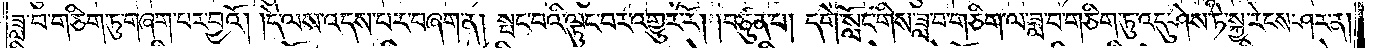ཟླ་བ་གཅིག་ཏུ་གཞག་པར་བྱའོ། །དེ་ལས་འདས་པར་བཞག་ན། སྤང་བའི་ལྟུང་བར་འགྱུར་རོ། །བཙུན་པ། དགེ་སློང་གིས་ཟླ་བ་གཅིག་ལ་ཟླ་བ་གཅིག་ཏུ་འདུ་ཤེས་ཏེ་སྐྱ་རེངས་ཤར་ན།
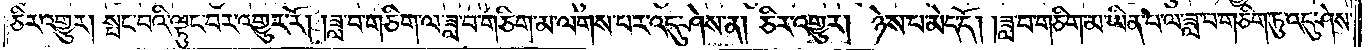ཅིར་འགྱུར། སྤང་བའི་ལྟུང་བར་འགྱུར་རོ། །ཟླ་བ་གཅིག་ལ་ཟླ་བ་གཅིག་མ་ལགས་པར་འདུ་ཤེས་ན། ཅིར་འགྱུར། ཉེས་པ་མེད་དོ། །ཟླ་བ་གཅིག་མ་ཡིན་པ་ལ་ཟླ་བ་གཅིག་ཏུ་འདུ་ཤེས་
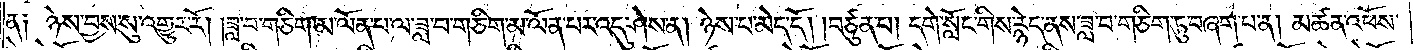ན༑ ཉེས་བྱས་སུ་འགྱུར་རོ། །ཟླ་བ་གཅིག་མ་ལོན་པ་ལ་ཟླ་བ་གཅིག་མ་ལོན་པར་འདུ་ཤེས་ན། ཉེས་པ་མེད་དོ། །བཙུན་པ། དགེ་སློང་གིས་རྙེད་ནས་ཟླ་བ་གཅིག་ཏུ་བཞག་པ་ན། མཚན་འཕོས་
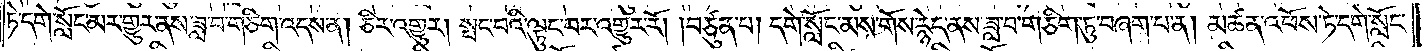ཏེ་དགེ་སློང་མར་གྱུར་ནས་ཟླ་བ་གཅིག་འདས་ན། ཅིར་འགྱུར། སྤང་པའི་ལྟུང་བར་འགྱུར་རོ། །བཙུན་པ། དགེ་སློང་མས་གོས་རྙེད་ནས་ཟླ་བ་གཅིག་ཏུ་བཞག་པ་ན། མཚན་འཕོས་ཏེ་དགེ་སློང་
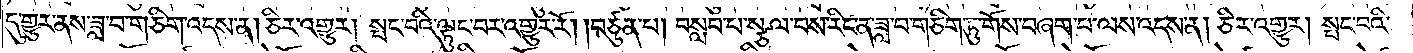དུ་གྱུར་ནས་ཟླ་བ་གཅིག་འདས་ན། ཅིར་འགྱུར། སྤང་བའི་ལྟུང་བར་འགྱུར་རོ། །བཙུན་པ། བསླབ་པ་སྩལ་བས་རིང་ན་ཟླ་བ་གཅིག་ཏུ་གོས་བཞག་པ་ལས་འདས་ན། ཅིར་འགྱུར། སྤང་བའི་
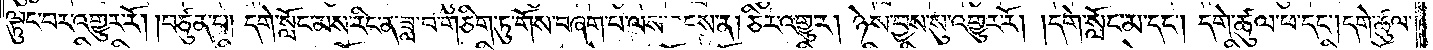ལྟུང་བར་འགྱུར་རོ། །བཙུན་པ། དགེ་སློང་མས་རིང་ན་ཟླ་བ་གཅིག་ཏུ་གོས་བཞག་པ་ལས་འདས་ན། ཅིར་འགྱུར། ཉེས་བྱས་སུ་འགྱུར་རོ། །དགེ་སློང་མ་དང༌། དགེ་ཚུལ་ཕ་དང༌། དགེ་ཚུལ་
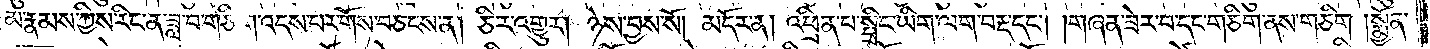མ་རྣམས་ཀྱིས་རིང་ན་ཟླ་བ་གཅིག་འདས་པར་གོས་བཅངས་ན། ཅིར་འགྱུར། ཉེས་བྱས་སོ།    །མདོར་ན། འཕྲིན་པ་སྤྲིང་ཡིག་ལག་བརྡ་དང༌། །གཞན་ཟེར་བ་དང་གཅིག་ནས་གཅིག །སྨྱོན་
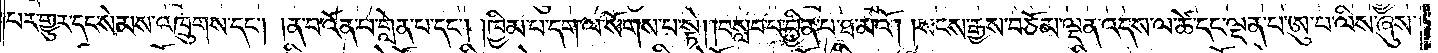པར་གྱུར་དང་སེམས་འཁྲུགས་དང༌། །ན་བ་འོན་པ་གླེན་པ་དང༌། །ཁྱིམ་པ་དག་ལ་སོགས་པ་སྟེ། །བསླབ་པ་བྱིན་པ་ཐ་མའོ། །སངས་རྒྱས་བཅོམ་ལྡན་འདས་ལ་ཚེ་དང་ལྡན་པ་ཨུ་པ་ལིས་ཞུས་
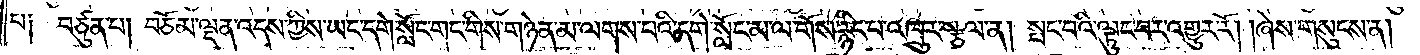པ༑ བཙུན་པ། བཅོམ་ལྡན་འདས་ཀྱིས་ཡང་དགེ་སློང་གང་གིས་གཉེན་མ་ལགས་པའི་དགེ་སློང་མ་ལ་གོས་རྙིང་པ་འཁྲུར་སྩལ་ན། སྤང་བའི་ལྟུང་བར་འགྱུར་རོ། །ཞེས་གསུངས་ན།
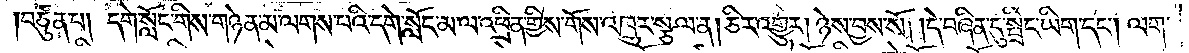བཙུན་པ། དགེ་སློང་གིས་གཉེན་མ་ལགས་པའི་དགེ་སློང་མ་ལ་འཕྲིན་གྱིས་གོས་འཁྲུར་སྩལ་ན། ཅིར་འགྱུར། ཉེས་བྱས་སོ། །དེ་བཞིན་དུ་སྤྲིང་ཡིག་དང༌། ལག་
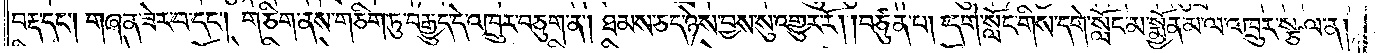བརྡ་དང༌། གཞན་ཟེར་བ་དང༌། གཅིག་ནས་གཅིག་ཏུ་བརྒྱུད་དེ་འཁྲུར་བཅུག་ན། ཐམས་ཅད་ཉེས་བྱས་སུ་འགྱུར་རོ། །བཙུན་པ། དགེ་སློང་གིས་དགེ་སློང་མ་སྨྱོན་མ་ལ་འཁྲུར་སྩལ་ན།
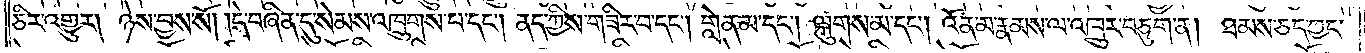ཅིར་འགྱུར། ཉེས་བྱས་སོ། །དེ་བཞིན་དུ་སེམས་འཁྲུགས་པ་དང༌། ནད་ཀྱིས་གཟིར་བ་དང༌། གླེན་མ་དང༌། ལྐུགས་མ་དང༌། འོན་མ་རྣམས་ལ་འཁྲུར་བཅུག་ན། ཐམས་ཅད་ཀྱང་
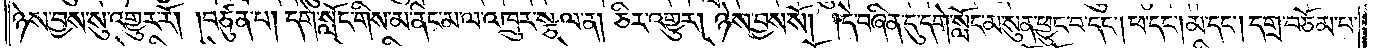ཉེས་བྱས་སུ་འགྱུར་རོ། །བཙུན་པ། དགེ་སློང་གིས་མ་ནིང་མ་ལ་འཁྲུར་སྩལ་ན། ཅིར་འགྱུར། ཉེས་བྱས་སོ། །དེ་བཞིན་དུ་དགེ་སློང་མ་སུན་ཕྱུང་བ་དང༌། ཕ་དང༌། མ་དང༌། དགྲ་བཅོམ་པ་
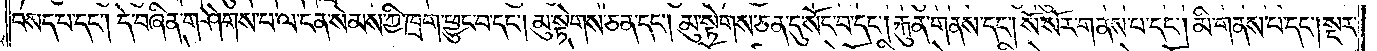བསད་པ་དང༌། དེ་བཞིན་གཤེགས་པ་ལ་ངན་སེམས་ཀྱི་ཁྲག་ཕྱུང་བ་དང༌། མུ་སྟེགས་ཅན་དང༌། མུ་སྟེགས་ཅན་དུ་སོང་བ་དང༌། རྐུན་གནས་དང༌། སོ་སོར་གནས་པ་དང༌། མི་གནས་པ་དང༌། སྔར་
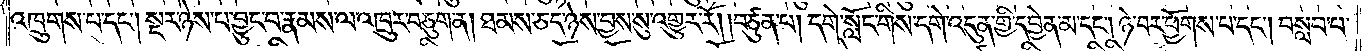འཁྲུགས་པ་དང༌། སྔར་ཉེས་པ་བྱུང་བ་རྣམས་ལ་འཁྲུར་བཅུག་ན། ཐམས་ཅད་ཉེས་བྱས་སུ་འགྱུར་རོ། །བཙུན་པ། དགེ་སློང་གིས་དགེ་འདུན་གྱི་དབྱེན་མ་དང༌། ཉེ་བར་ཕྱོགས་པ་དང༌། བསླབ་པ་
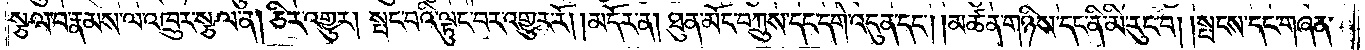སྩལ་བ་རྣམས་ལ་འཁྲུར་སྩལ་ན། ཅིར་འགྱུར། སྤང་བའི་ལྟུང་བར་འགྱུར་རོ། །མདོར་ན། ཐུན་མོང་བཀྲུས་དང་དགེ་འདུན་དང༌། །མཚན་གཉིས་དང་ནི་མི་རུང་བ། །སྤངས་དང་གཞན་
